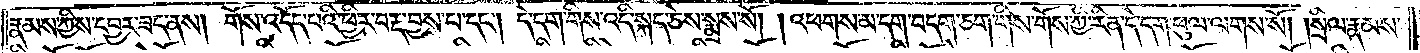རྣམས་ཀྱིས་དབྱར་ཟད་ནས། གོས་འདོད་པའི་ཕྱིར་བརྡ་བྱས་པ་དང༌། དེ་དག་གིས་འདི་སྐད་ཅེས་སྨྲས་སོ། །འཕགས་མ་དག་བདག་ཅག་གིས་གོས་ཀྱི་རིན་དེ་དག་ཕུལ་ལགས་སོ། །སྲིལ་རྣམས་
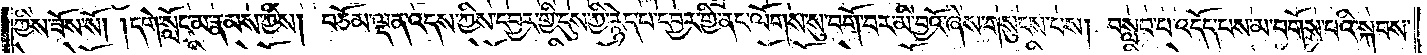ཀྱིས་ཟོས་སོ། །དགེ་སློང་མ་རྣམས་ཀྱིས། བཅོམ་ལྡན་འདས་ཀྱིས་དབྱར་གྱི་དུས་ཀྱི་རྙེད་པ་དབྱར་གྱི་ནང་ལོགས་སུ་བགོ་བར་མི་བྱའོ་ཞེས་གསུངས་པས། བསླབ་པ་འདོད་པས་མ་བགོས་པའི་སྐབས་
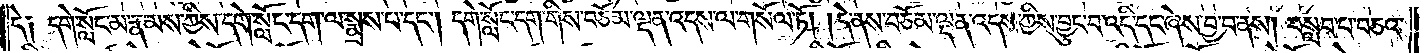དེ༑ དགེ་སློང་མ་རྣམས་ཀྱིས་དགེ་སློང་དག་ལ་སྨྲས་པ་དང༌། དགེ་སློང་དག་གིས་བཅོམ་ལྡན་འདས་ལ་གསོལ་ཏོ། །དེ་ནས་བཅོམ་ལྡན་འདས་ཀྱིས་བྱུང་བ་འདི་དང་ཞེས་བྱ་བ་ནས། བསླབ་པ་བཅའ་
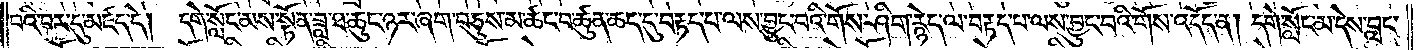བའི་བར་དུ་མཛད་དེ། དགེ་སློང་མས་སྟོན་ཟླ་ཐ་ཆུང་ཉར་ཞག་བཅུས་མ་ཚང་བ་ཚུན་ཆད་དུ་བརྟད་པ་ལས་བྱུང་བའི་གོས་ཤིག་རྙེད་ལ་བརྟད་པ་ལས་བྱུང་བའི་གོས་འདོད་ན། དགེ་སློང་མ་དེས་བླང་
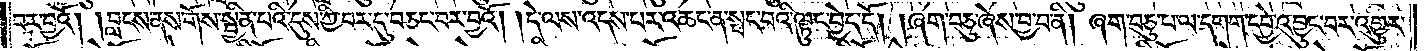བར་བྱའོ། །བླངས་ནས་གོས་སྦྱིན་པའི་དུས་ཀྱི་བར་དུ་བཅང་བར་བྱའོ། །དེ་ལས་འདས་པར་འཆང་ན་སྤང་བའི་ལྟུང་བྱེད་དོ། །ཞག་བཅུ་ཞེས་བྱ་བ་ནི། ཞག་བཅུ་པ་ལ་དགག་དབྱེ་འབྱུང་བར་འགྱུར་
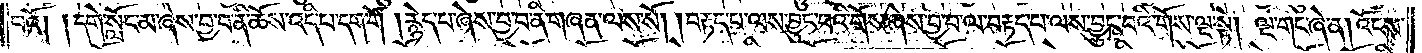པའོ། །དགེ་སློང་མ་ཞེས་བྱ་བ་ནི་ཆོས་འདི་པ་དག་གོ །རྙེད་པ་ཞེས་བྱ་བ་ནི་གཞན་ལས་སོ། །བརྟད་པ་ལས་བྱུང་བའི་གོས་ཞེས་བྱ་བ་ལ་བརྟད་པ་ལས་བྱུང་བའི་གོས་ལྔ་སྟེ། ལྔ་གང་ཞེ་ན། འོངས་
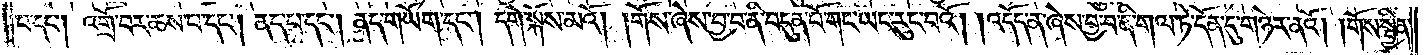པ་དང༌། འགྲོ་བར་ཆས་པ་དང༌། ནད་པ་དང༌། ནད་གཡོག་དང༌། དགེ་སྐོས་མའོ། །གོས་ཞེས་བྱ་བ་ནི་བདུན་པོ་གང་ཡང་རུང་བའོ། །འདོད་ན་ཞེས་བྱ་བ་ནི་གལ་ཏེ་དོན་དུ་གཉེར་ནའོ། །གོས་སྦྱིན་
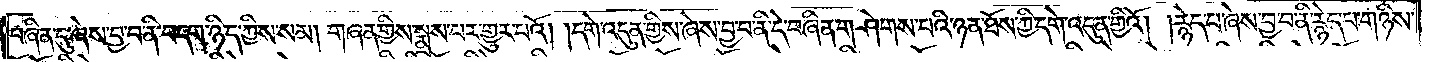བཞིན་དུ་ཞེས་བྱ་བ་ནི་བདག་ཉིད་ཀྱིས་སམ། གཞན་གྱིས་སྨྲས་པར་གྱུར་པའོ། །དགེ་འདུན་གྱིས་ཞེས་བྱ་བ་ནི་དེ་བཞིན་གཤེགས་པའི་ཉན་ཐོས་ཀྱི་དགེ་འདུན་གྱིའོ། །རྙེད་པ་ཞེས་བྱ་བ་ནི་རྙེད་པ་གཉིས་
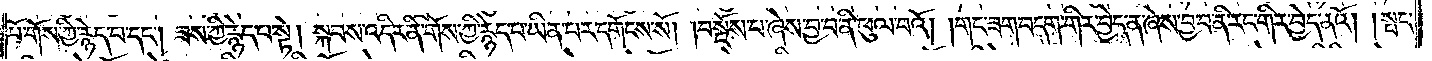པོ་གོས་ཀྱི་རྙེད་པ་དང༌། ཟས་ཀྱི་རྙེད་པ་སྟེ། སྐབས་འདིར་ནི་གོས་ཀྱི་རྙེད་པ་ཡིན་པར་དགོངས་སོ། །བསྔོས་པ་ཞེས་བྱ་བ་ནི་ཕུལ་བའོ། །གང་ཟག་བདག་གིར་བྱེད་ན་ཞེས་བྱ་བ་ནི་རང་གིར་བྱེད་ནའོ། །སྤང་
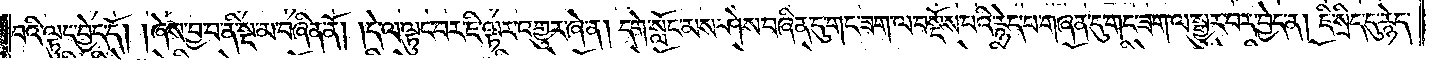བའི་ལྟུང་བྱེད་དོ། །ཞེས་བྱ་བ་ནི་སྔ་མ་བཞིན་ནོ། །དེ་ལ་ལྟུང་བར་ཇི་ལྟར་འགྱུར་ཞེ་ན། དགེ་སློང་མས་ཤེས་བཞིན་དུ་གང་ཟག་ལ་བསྔོས་པའི་རྙེད་པ་གཞན་དུ་གང་ཟག་ལ་སྒྱུར་བར་བྱེད་ན། ཇི་སྲིད་དུ་རྙེད་
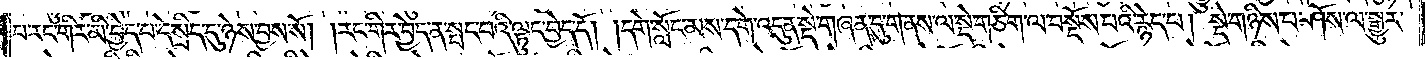པ་རང་གིར་མི་བྱེད་པ་དེ་སྲིད་དུ་ཉེས་བྱས་སོ། །རང་གིར་བྱེད་ན་སྤང་བའི་ལྟུང་བྱེད་དོ། །དགེ་སློང་མས་དགེ་འདུན་སྡེ་གཞན་དུ་གནས་ལ་སྡེ་གཅིག་ལ་བསྔོས་པའི་རྙེད་པ། སྡེ་གཉིས་པ་ཤོས་ལ་སྒྱུར་
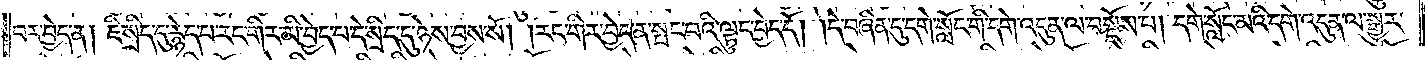བར་བྱེད་ན། ཇི་སྲིད་དུ་རྙེད་པ་རང་གིར་མི་བྱེད་པ་དེ་སྲིད་དུ་ཉེས་བྱས་སོ། །རང་གིར་བྱེད་ན་སྤང་བའི་ལྟུང་བྱེད་དོ། །དེ་བཞིན་དུ་དགེ་སློང་གི་དགེ་འདུན་ལ་བསྔོས་པ། དགེ་སློང་མའི་དགེ་འདུན་ལ་སྒྱུར་
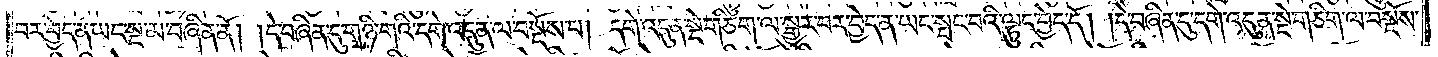བར་བྱེད་ན་ཡང་སྔ་མ་བཞིན་ནོ། །དེ་བཞིན་དུ་གཉི་གའི་དགེ་འདུན་ལ་བསྔོས་པ། དགེ་འདུན་སྡེ་གཅིག་ལ་སྒྱུར་བར་བྱེད་ན་ཡང་སྤང་བའི་ལྟུང་བྱེད་དོ། །དེ་བཞིན་དུ་དགེ་འདུན་སྡེ་གཅིག་ལ་བསྔོས་
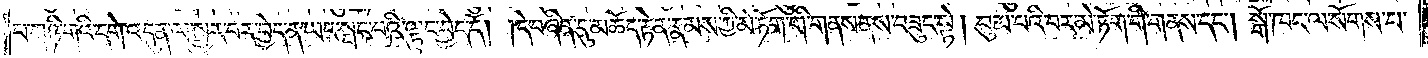པ་གཉི་གའི་དགེ་འདུན་ལ་སྒྱུར་བར་བྱེད་ན་ཡང་སྤང་བའི་ལྟུང་བྱེད་དོ། །དེ་བཞིན་དུ་མཆོད་རྟེན་རྣམས་ཀྱི་མེ་ཏོག་གི་གནས་ནས་བཟུང་སྟེ། བུམ་པའི་བར་མེ་ཏོག་གི་གནས་དང༌། སྒོ་ཁང་ལ་སོགས་པ་
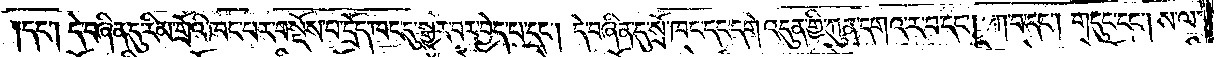དང༌། དེ་བཞིན་དུ་རིམ་གྲོའི་ཁང་པར་བསྡོས་པ་དྲོད་ཁང་དུ་སྒྱུར་བར་བྱེད་པ་དང༌། དེ་བཞིན་དུ་སྲོ་ཁང་དང་དགེ་འདུན་གྱི་ཀུན་དགའ་ར་བ་དང༌། ཀ་བ་དང༌། གདུང་དང༌། ས་ལ་
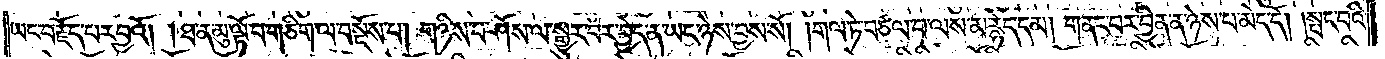ཡང་བརྗོད་པར་བྱའོ། །ཐ་ན་མུ་ལྟོ་བ་གཅིག་ལ་བསྡོས་པ། གཉིས་པ་ཤོས་ལ་སྒྱུར་བར་བྱེད་ན་ཡང་ཉེས་བྱས་སོ། །གལ་ཏེ་བཙལ་བ་ལས་མ་རྙེད་དམ། གནང་བར་བྱིན་ན་ཉེས་པ་མེད་དོ། །སྤང་བའི་
